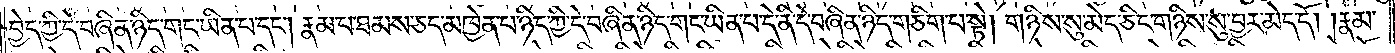བྱེད་ཀྱི་དེ་བཞིན་ཉིད་གང་ཡིན་པ་དང༌། རྣམ་པ་ཐམས་ཅད་མཁྱེན་པ་ཉིད་ཀྱི་དེ་བཞིན་ཉིད་གང་ཡིན་པ་དེ་ནི་དེ་བཞིན་ཉིད་གཅིག་པ་སྟེ། གཉིས་སུ་མེད་ཅིང་གཉིས་སུ་བྱར་མེད་དོ། །རྣམ་
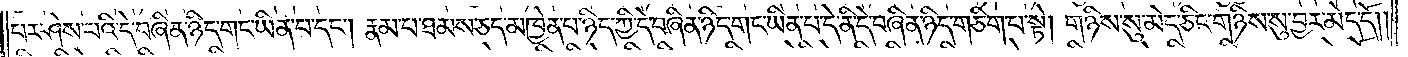པར་ཤེས་པའི་དེ་བཞིན་ཉིད་གང་ཡིན་པ་དང༌། རྣམ་པ་ཐམས་ཅད་མཁྱེན་པ་ཉིད་ཀྱི་དེ་བཞིན་ཉིད་གང་ཡིན་པ་དེ་ནི་དེ་བཞིན་ཉིད་གཅིག་པ་སྟེ། གཉིས་སུ་མེད་ཅིང་གཉིས་སུ་བྱར་མེད་དོ། །
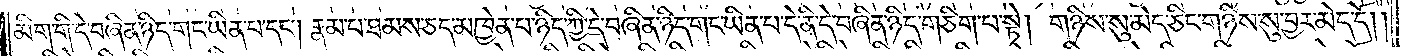མིག་གི་དེ་བཞིན་ཉིད་གང་ཡིན་པ་དང༌། རྣམ་པ་ཐམས་ཅད་མཁྱེན་པ་ཉིད་ཀྱི་དེ་བཞིན་ཉིད་གང་ཡིན་པ་དེ་ནི་དེ་བཞིན་ཉིད་གཅིག་པ་སྟེ། གཉིས་སུ་མེད་ཅིང་གཉིས་སུ་བྱར་མེད་དོ། །
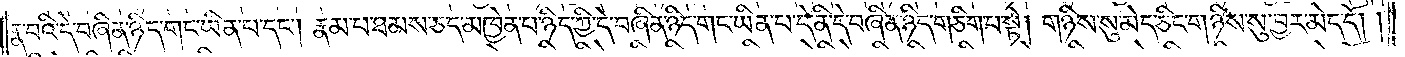རྣ་བའི་དེ་བཞིན་ཉིད་གང་ཡིན་པ་དང༌། རྣམ་པ་ཐམས་ཅད་མཁྱེན་པ་ཉིད་ཀྱི་དེ་བཞིན་ཉིད་གང་ཡིན་པ་དེ་ནི་དེ་བཞིན་ཉིད་གཅིག་པ་སྟེ། གཉིས་སུ་མེད་ཅིང་གཉིས་སུ་བྱར་མེད་དོ། །
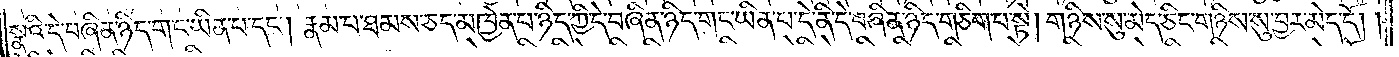སྣའི་དེ་བཞིན་ཉིད་གང་ཡིན་པ་དང༌། རྣམ་པ་ཐམས་ཅད་མཁྱེན་པ་ཉིད་ཀྱི་དེ་བཞིན་ཉིད་གང་ཡིན་པ་དེ་ནི་དེ་བཞིན་ཉིད་གཅིག་པ་སྟེ། གཉིས་སུ་མེད་ཅིང་གཉིས་སུ་བྱར་མེད་དོ། །
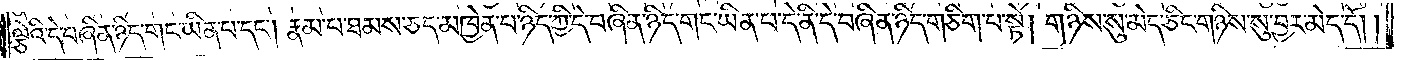ལྕེའི་དེ་བཞིན་ཉིད་གང་ཡིན་པ་དང༌། རྣམ་པ་ཐམས་ཅད་མཁྱེན་པ་ཉིད་ཀྱི་དེ་བཞིན་ཉིད་གང་ཡིན་པ་དེ་ནི་དེ་བཞིན་ཉིད་གཅིག་པ་སྟེ། གཉིས་སུ་མེད་ཅིང་གཉིས་སུ་བྱར་མེད་དོ། །
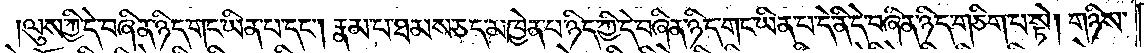ལུས་ཀྱི་དེ་བཞིན་ཉིད་གང་ཡིན་པ་དང༌། རྣམ་པ་ཐམས་ཅད་མཁྱེན་པ་ཉིད་ཀྱི་དེ་བཞིན་ཉིད་གང་ཡིན་པ་དེ་ནི་དེ་བཞིན་ཉིད་གཅིག་པ་སྟེ། གཉིས་
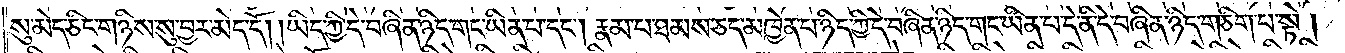སུ་མེད་ཅིང་གཉིས་སུ་བྱར་མེད་དོ། །ཡིད་ཀྱི་དེ་བཞིན་ཉིད་གང་ཡིན་པ་དང༌། རྣམ་པ་ཐམས་ཅད་མཁྱེན་པ་ཉིད་ཀྱི་དེ་བཞིན་ཉིད་གང་ཡིན་པ་དེ་ནི་དེ་བཞིན་ཉིད་གཅིག་པ་སྟེ།
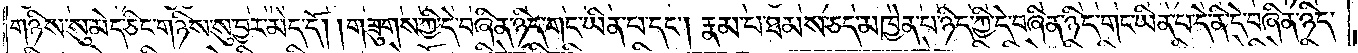གཉིས་སུ་མེད་ཅིང་གཉིས་སུ་བྱར་མེད་དོ། །གཟུགས་ཀྱི་དེ་བཞིན་ཉིད་གང་ཡིན་པ་དང༌། རྣམ་པ་ཐམས་ཅད་མཁྱེན་པ་ཉིད་ཀྱི་དེ་བཞིན་ཉིད་གང་ཡིན་པ་དེ་ནི་དེ་བཞིན་ཉིད་
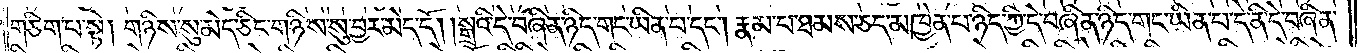གཅིག་པ་སྟེ། གཉིས་སུ་མེད་ཅིང་གཉིས་སུ་བྱར་མེད་དོ། །སྒྲའི་དེ་བཞིན་ཉིད་གང་ཡིན་པ་དང༌། རྣམ་པ་ཐམས་ཅད་མཁྱེན་པ་ཉིད་ཀྱི་དེ་བཞིན་ཉིད་གང་ཡིན་པ་དེ་ནི་དེ་བཞིན་
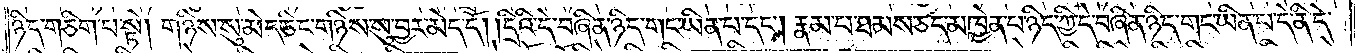ཉིད་གཅིག་པ་སྟེ། གཉིས་སུ་མེད་ཅིང་གཉིས་སུ་བྱར་མེད་དོ། །དྲིའི་དེ་བཞིན་ཉིད་གང་ཡིན་པ་དང༌། རྣམ་པ་ཐམས་ཅད་མཁྱེན་པ་ཉིད་ཀྱི་དེ་བཞིན་ཉིད་གང་ཡིན་པ་དེ་ནི་དེ་
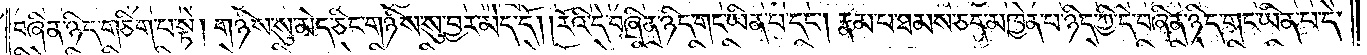བཞིན་ཉིད་གཅིག་པ་སྟེ། གཉིས་སུ་མེད་ཅིང་གཉིས་སུ་བྱར་མེད་དོ། །རོའི་དེ་བཞིན་ཉིད་གང་ཡིན་པ་དང༌། རྣམ་པ་ཐམས་ཅད་མཁྱེན་པ་ཉིད་ཀྱི་དེ་བཞིན་ཉིད་གང་ཡིན་པ་དེ་
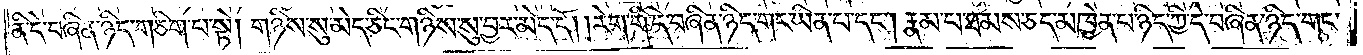ནི་དེ་བཞིན་ཉིད་གཅིག་པ་སྟེ། གཉིས་སུ་མེད་ཅིང་གཉིས་སུ་བྱར་མེད་དོ། །རེག་གི་དེ་བཞིན་ཉིད་གང་ཡིན་པ་དང༌། རྣམ་པ་ཐམས་ཅད་མཁྱེན་པ་ཉིད་ཀྱི་དེ་བཞིན་ཉིད་གང་
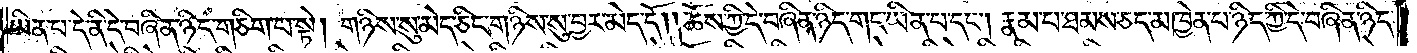ཡིན་པ་དེ་ནི་དེ་བཞིན་ཉིད་གཅིག་པ་སྟེ། གཉིས་སུ་མེད་ཅིང་གཉིས་སུ་བྱར་མེད་དོ། །ཆོས་ཀྱི་དེ་བཞིན་ཉིད་གང་ཡིན་པ་དང༌། རྣམ་པ་ཐམས་ཅད་མཁྱེན་པ་ཉིད་ཀྱི་དེ་བཞིན་ཉིད་
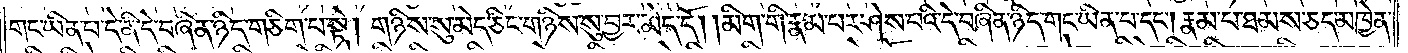གང་ཡིན་པ་དེ་ནི་དེ་བཞིན་ཉིད་གཅིག་པ་སྟེ། གཉིས་སུ་མེད་ཅིང་གཉིས་སུ་བྱར་མེད་དོ། །མིག་གི་རྣམ་པར་ཤེས་པའི་དེ་བཞིན་ཉིད་གང་ཡིན་པ་དང༌། རྣམ་པ་ཐམས་ཅད་མཁྱེན་
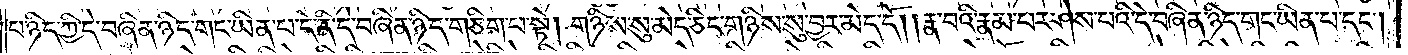པ་ཉིད་ཀྱི་དེ་བཞིན་ཉིད་གང་ཡིན་པ་དེ་ནི་དེ་བཞིན་ཉིད་གཅིག་པ་སྟེ། གཉིས་སུ་མེད་ཅིང་གཉིས་སུ་བྱར་མེད་དོ། །རྣ་བའི་རྣམ་པར་ཤེས་པའི་དེ་བཞིན་ཉིད་གང་ཡིན་པ་དང༌།
